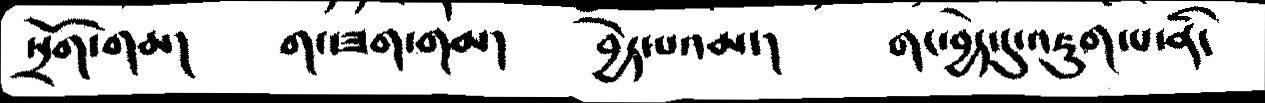སྲོག་གམ།  གང་ཟག་གམ།   བྱེད་པའམ་།    གང་བྱེད་དུ་འཇུག་པ་ནི་
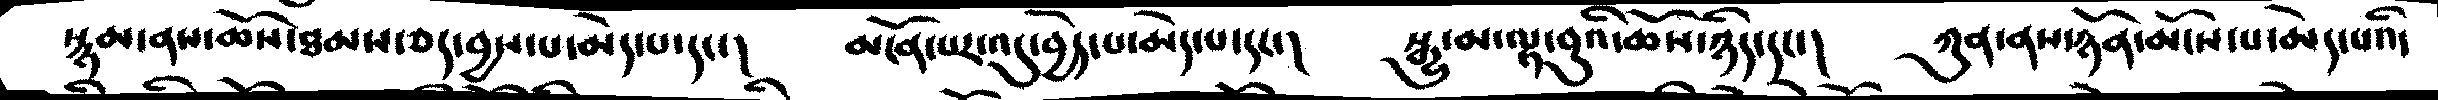སྙམ་ནས་ཆོས་ཐམས་ཅད་བྱས་པ་མེད་པ་དང་།    མངོན་པར་འདུ་བྱེད་པ་མེད་པ་དང་།    སྒྱུ་མ་ལྟ་བུའི་ཆོས་ཉིད་དང་།    ཀུན་ནས་ཉོན་མོངས་པ་མེད་པའི་
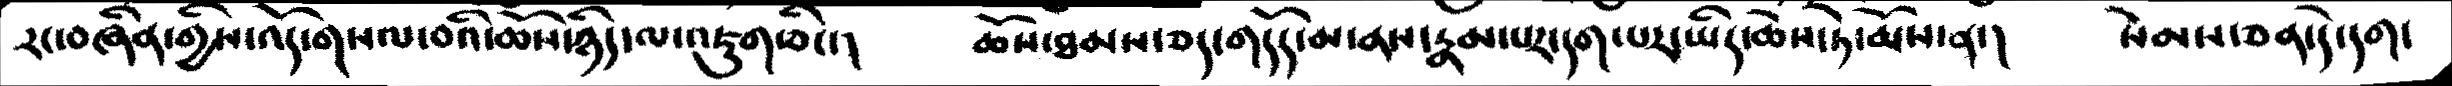རང་བཞིན་གྱིས་འདོ་གསལ་བའི་ཆོས་ཉིད་ལ་འཇུག་ཅིང་།   ཆོས་ཐམས་ཅད་གདོད་མ་ནས་རྣམ་པར་དག་པར་ཡིད་ཆེས་ཏེ་མོས་ན་།  སེམས་ཅན་དེ་དག་
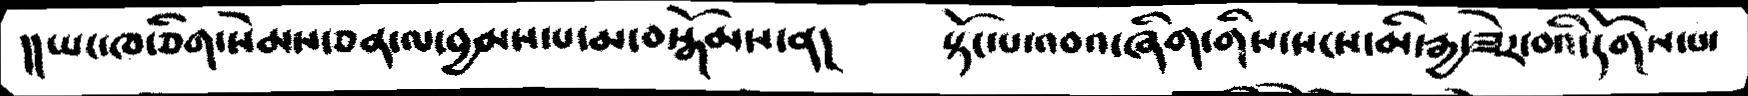།།ཡང་ཁ་ཅིག་སེམས་ཅན་ལ་བྱམས་པ་མ་བསྒོམས་ན།    སྟོང་པ་འབའ་ཞིག་གིས་སངས་མི་རྒྱ་ཟེར་བའི་དོགས་པ་
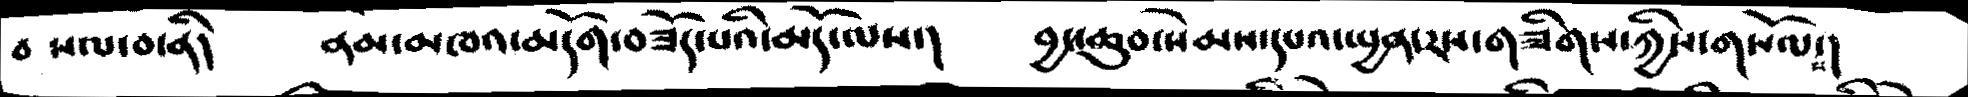བ སལ་བ་ནི།   ནམ་མཁའ་མདོག་བཟོད་པའི་མདོ་ལས་།     བྱང་ཆུབ་སེམས་དཔའ་སྤྱན་རས་གཟིགས་ཀྱིས་གསོལ་།
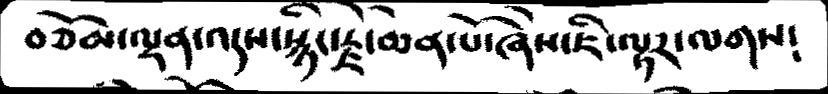བཅོམ་ལྡན་འདས་སྙིང་རྗེ་ཆེན་པོ་ཞེས་ཇི་ལྟར་ལགས༴
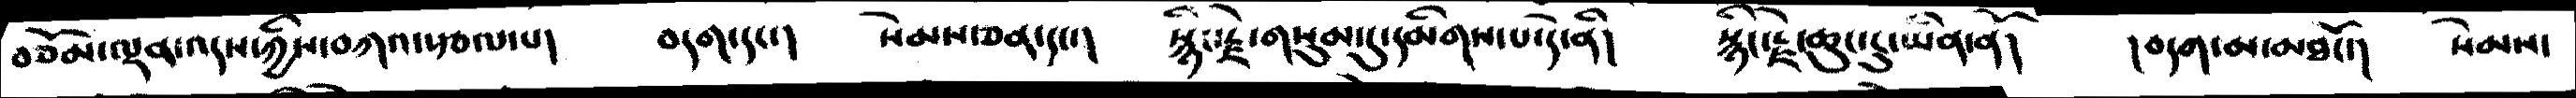བཅོམ་ལྡན་འདས་ཀྱིས་བཀའ་རྩལ་པ།    བདག་དང་།   སེམས་ཅན་དང་།   སྙིང་རྗེ་གསུམ་དུ་དམིགས་པ་དེ་ནི།     སྙིང་རྗེ་ཆུང་ངུ་ཡིན་ནོ།   །བདག་མ་མཐོང་།  སེམས་
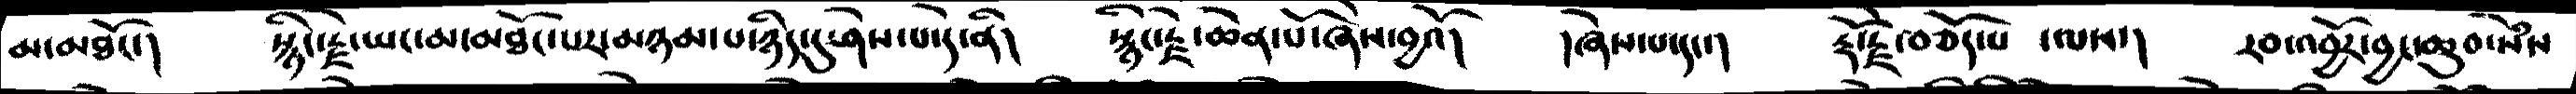མ་མཐོང་།    སྙིང་རྗེ་ཡང་མ་མཐོང་པར་མཉམ་པ་ཉིད་དུ་ཤེས་པ་དེ་ནི།    སྙིང་རྗེ་ཆེན་པོ་ཞེས་བྱའོ།    །ཞེས་པ་དང་།    རྡོ་རྗེ་བཅོད་པ་ལས་།    རབ་འབྱོར་བྱང་ཆུབས་སེཾས
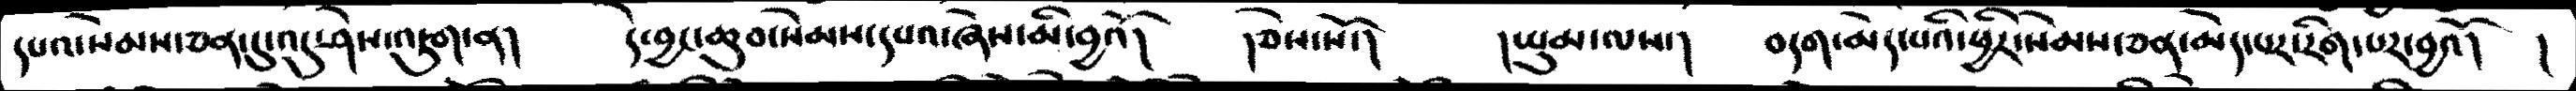དཔའ་སེམས་ཅན་དུ་འདུ་ཤེས་འཇུག་ན།  དེ་བྱང་ཆུབ་སེམས་དཔའ་ཞེས་མི་བྱའོ།    །ཅེས་སོ་།    །ཡུམ་ལས་།    བདག་མེད་པའི་ཕྱིར་སེམས་ཅན་མེད་པར་རིག་པར་བྱའོ།    །
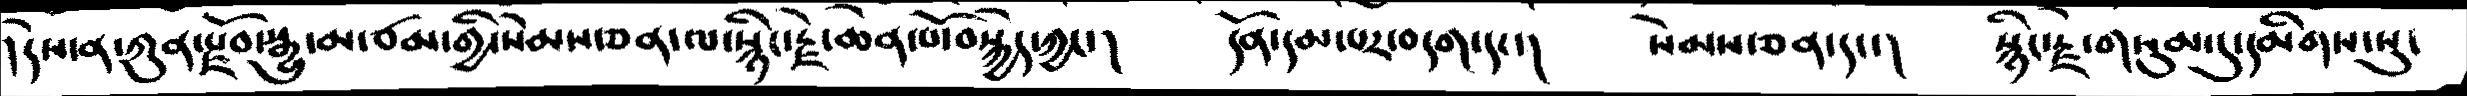།དེས་ན་ཀུན་རྫོབ་སྒྱུ་མ་ཙམ་གྱི་སེམས་ཅན་ལ་སྙིང་རྗེ་ཆེན་པོ་བསྐྱེད་ཀྱང་།    དོན་དམ་པར་བདག་དང་།    སེམས་ཅན་དང་།    སྙིང་རྗེ་གསུམ་དུ་དམིགས་སུ་
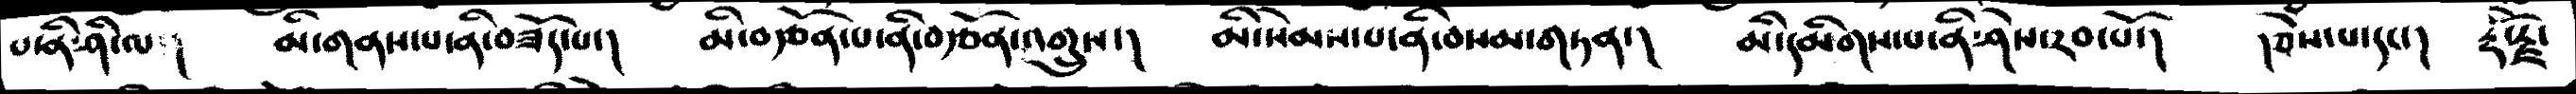པ་ནི་ཤི་ལ།      མི་གནས་པ་ནི་བཟོད་པ་དང་།   མི་བརྩོན་པ་ནི་བརྩོན་འགྲུས་།    མི་སེམས་པ་ནི་བསམ་གཏན་།   མི་དམིགས་པ་ནི་ཤེས་རབ་པོ་།   །ཅེས་པ་དང་།  རྡོ་རྗེ་
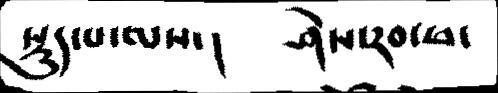སྡུད་པ་ལས་།   ཤེས་རབ་ཕ་
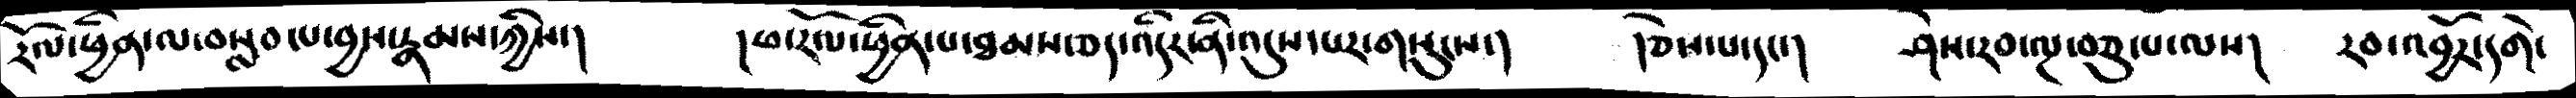རོལ་ཕྱིན་ལ་བསླབ་པ་བྱས་རྣམས་ཀྱིས་།  །ཕ་རོལ་ཕྱིན་པ་ཐམས་ཅད་འདིར་ནི་འདུས་པར་གསུངས་།   །ཅེས་པ་དང་།   ཤེས་རབ་ལྔ་བཅུ་པ་པས།  རབ་འབྱོར་དགེ་
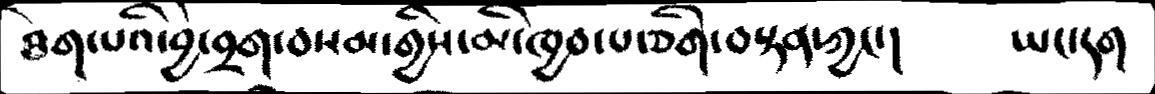ཐེག་པའི་བྱེ་བྲག་བསམ་གྱིས་མི་ཁྱབ་པ་ཅིག་བསྟན་ཀྱང་།    ཡང་དག
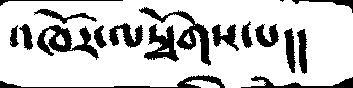འཁོར་ལསྭོགས་པ་།།
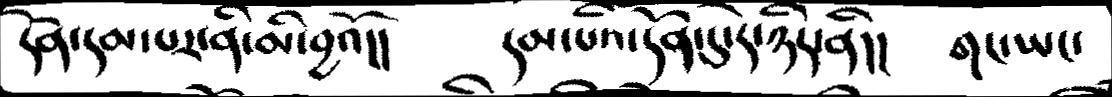དོན་དམ་པར་ནི་མི་བྱའོ།།  དམ་པའི་དོན་དུ་དེ་ཉིད་ནི།།  གང་ཡང་
